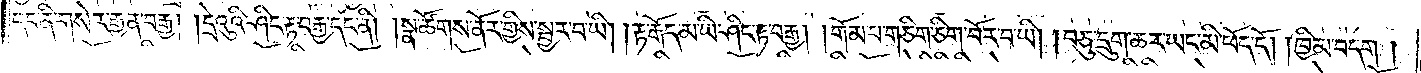དང་ནི་གསེར་རྒྱན་བརྒྱ། །དྲེའུའི་ཤིང་རྟ་བརྒྱ་དང་ནི། །སྣ་ཚོགས་ནོར་གྱིས་སྦྱར་བ་ཡི། །རྟ་རྒོད་མ་ཡི་ཤིང་རྟ་བརྒྱ། །གོམ་པ་གཅིག་ཅིག་བོར་བ་ཡི། །བཅུ་དྲུག་ཆར་ཡང་མི་ཕོད་དོ། །ཁྱིམ་བདག།
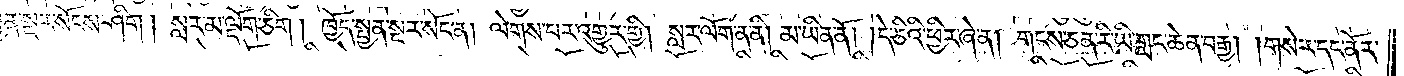སྤྱན་སྔར་སོངས་ཤིག། སླར་མ་ལྡོག་ཅིག། ཁྱོད་སྤྱན་སྔར་སོང་ན། ལེགས་པར་འགྱུར་གྱི། སླར་ལོག་ན་ནི། མ་ཡིན་ནོ། །དེ་ཅིའི་ཕྱིར་ཞེ་ན། གངས་ཅན་རི་ཡི་གླང་ཆེན་བརྒྱ། །གསེར་དང་ནོར་
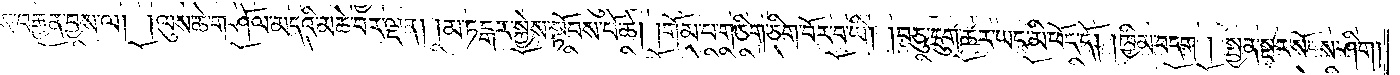(བུས)་བརྒྱན་བྱས་ལ། །ལུས་ཆེ་གཤོལ་མདའི་མཆེ་བར་ལྡན། །མ་ཏངྒར་སྐྱེས་སྟོབས་པོ་ཆེ། །གོམ་པ་གཅིག་ཅིག་བོར་བ་ཡི། །བཅུ་དྲུག་ཆར་ཡང་མི་ཕོད་དོ། །ཁྱིམ་བདག། སྤྱན་སྔར་སོངས་ཤིག།
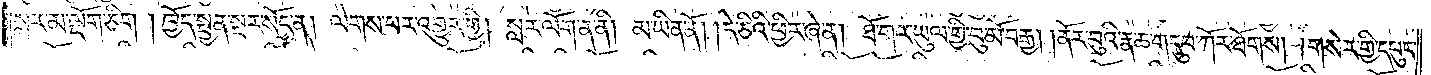སླར་མ་ལྡོག་ཅིག །ཁྱོད་སྤྱན་སྔར་སོང་ན། ལེགས་པར་འགྱུར་གྱི། སླར་ལོག་ན་ནི། མ་ཡིན་ནོ། །དེ་ཅིའི་ཕྱིར་ཞེ་ན། ཐོ་གར་ཡུལ་གྱི་བུ་མོ་བརྒྱ། །ནོར་བུའི་རྣ་ཆ་གདུབ་ཀོར་ཐོགས། །གསེར་གྱི་དཔུང་
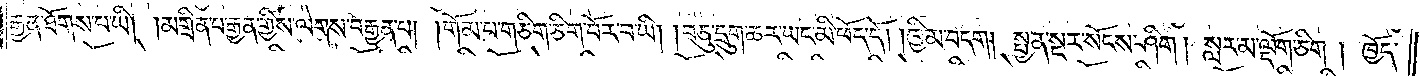རྒྱན་ཐོགས་པ་ཡི། །མགྲིན་པ་རྒྱན་གྱིས་ལེགས་བརྒྱན་པ། །གོམ་པ་གཅིག་ཅིག་བོར་པ་ཡི། །བཅུ་དྲུག་ཆར་ཡང་མི་ཕོད་དོ། །ཁྱིམ་བདག། སྤྱན་སྔར་སོངས་ཤིག། སླར་མ་ལྡོག་ཅིག། ཁྱོད་
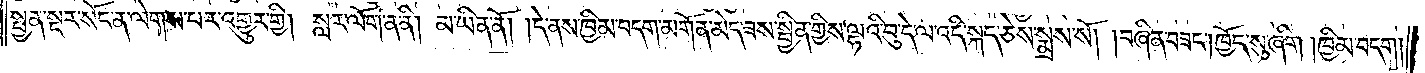སྤྱན་སྔར་སོང་ན་ལེགས་པར་འགྱུར་གྱི། སླར་ལོག་ན་ནི། མ་ཡིན་ནོ། །དེ་ནས་ཁྱིམ་བདག་མགོན་མེད་ཟས་སྦྱིན་གྱིས་ལྷའི་བུ་དེ་ལ་འདི་སྐད་ཅེས་སྨྲས་སོ། །བཞིན་བཟང༌། ཁྱོད་སུ་ཞིག །ཁྱིམ་བདག་
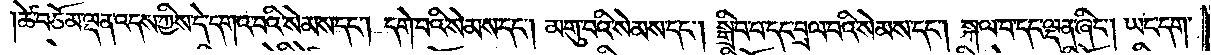།ཚེ་བཅོམ་ལྡན་འདས་ཀྱིས་དེ་དགའ་བའི་སེམས་དང༌། དགེ་བའི་སེམས་དང༌། མགུ་བའི་སེམས་དང༌། སྒྲིབ་པ་དང་བྲལ་བའི་སེམས་དང༌། སྐལ་བ་དང་ལྡན་ཞིང༌། ཡང་དག་
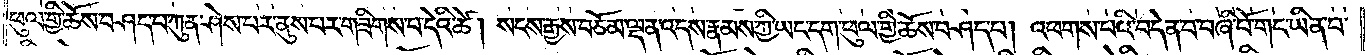ཕུལ་གྱི་ཆོས་བཤད་པ་ཀུན་ཤེས་པར་ནུས་པར་གཟིགས་པ་དེའི་ཚེ། སངས་རྒྱས་བཅོམ་ལྡན་འདས་རྣམས་ཀྱི་ཡང་དག་ཕུལ་གྱི་ཆོས་བཤད་པ། འཕགས་པའི་བདེན་པ་བཞི་པོ་གང་ཡིན་པ་
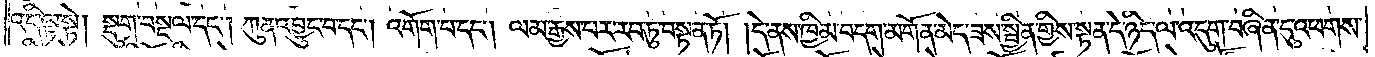འདི་ལྟ་སྟེ། སྡུག་བསྔལ་དང༌། ཀུན་འབྱུང་བ་དང༌། འགོག་པ་དང༌། ལམ་རྒྱས་པར་རབ་ཏུ་བསྟན་ཏོ། །དེ་ནས་ཁྱིམ་བདག་མགོན་མེད་ཟས་སྦྱིན་གྱིས་སྟན་དེ་ཉིད་ལ་འདུག་བཞིན་དུ་འཕགས་
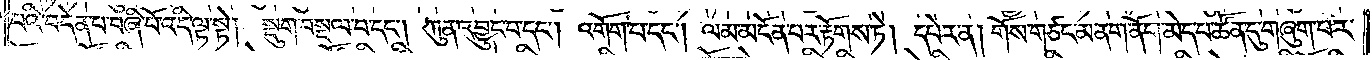བའི་བདེན་པ་བཞི་པོ་འདི་ལྟ་སྟེ། སྡུག་བསྔལ་བ་དང༌། ཀུན་འབྱུང་བ་དང༌། འགོག་པ་དང༌། ལམ་མངོན་པར་རྟོགས་ཏེ། དཔེར་ན། གོས་གཙང་མ་ནག་ནོག་མེད་པ་ཚོན་དུ་གཞུག་པར་
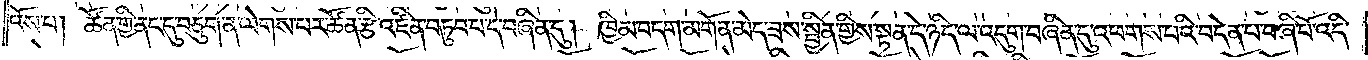འོས་པ། ཚོན་གྱི་ནང་དུ་བཅུག་ན་ལེགས་པར་ཚོན་རྩི་འཛིན་བཏུབ་པ་དེ་བཞིན་དུ། ཁྱིམ་བདག་མགོན་མེད་ཟས་སྦྱིན་གྱིས་སྟན་དེ་ཉིད་ལ་འདུག་བཞིན་དུ་འཕགས་པའི་བདེན་པ་བཞི་པོ་འདི་
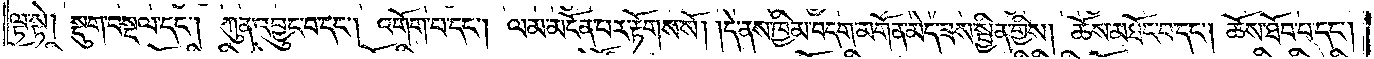ལྟ་སྟེ། སྡུག་བསྔལ་དང༌། ཀུན་འབྱུང་བ་དང༌། འགོག་པ་དང༌། ལམ་མངོན་པར་རྟོགས་སོ། །དེ་ནས་ཁྱིམ་བདག་མགོན་མེད་ཟས་སྦྱིན་གྱིས། ཆོས་མཐོང་བ་དང༌། ཆོས་ཐོབ་པ་དང༌།
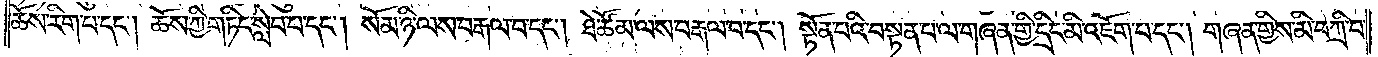ཆོས་རིག་པ་དང༌། ཆོས་ཀྱི་གཏིང་སླེབ་པ་དང༌། སོམ་ཉི་ལས་བརྒལ་བ་དང༌། ཐེ་ཚོམ་ལས་བརྒལ་བ་དང༌། སྟོན་པའི་བསྟན་པ་ལ་གཞན་གྱི་དྲིང་མི་འཇོག་པ་དང༌། གཞན་གྱིས་མི་བཀྲི་བ་
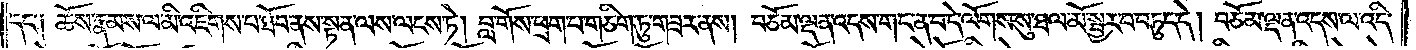དང༌། ཆོས་རྣམས་ལ་མི་འཇིགས་པ་ཐོབ་ནས་སྟན་ལས་ལངས་ཏེ། བླ་གོས་ཕྲག་པ་གཅིག་ཏུ་གཟར་ནས། བཅོམ་ལྡན་འདས་གང་ན་བ་དེ་ལོགས་སུ་ཐལ་མོ་སྦྱར་བ་བཏུད་དེ། བཅོམ་ལྡན་འདས་ལ་འདི་
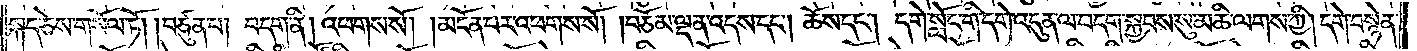སྐད་ཅེས་གསོལ་ཏོ། །བཙུན་པ། བདག་ནི། འཕགས་སོ། །མངོན་པར་འཕགས་སོ། །བཅོམ་ལྡན་འདས་དང༌། ཆོས་དང༌། དགེ་སློང་གི་དགེ་འདུན་ལ་བདག་སྐྱབས་སུ་མཆི་ལགས་ཀྱི། དགེ་བསྙེན་
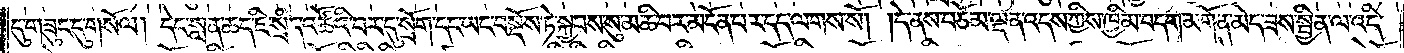དུ་གཟུང་དུ་གསོལ། དེང་སླན་ཆད་ཇི་སྲིད་འཚོའི་བར་དུ་སྲོག་དང་ཡང་བསྡོས་ཏེ་སྐྱབས་སུ་མཆི་བར་མངོན་པར་དད་ལགས་སོ། །དེ་ནས་བཅོམ་ལྡན་འདས་ཀྱིས་ཁྱིམ་བདག་མགོན་མེད་ཟས་སྦྱིན་ལ་འདི་
